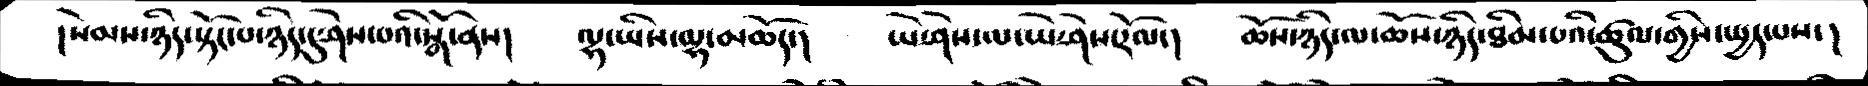།སེམས་ཉིད་སྟོང་པ་ཉིད་དུ་ཤེས་པའི་སྒོ་ནས།   ལྷ་ཡིས་ལྷ་མཆོད་།   ཡེ་ཤེས་ལ་ཡེ་ཤེས་རོལ་།   ཆོས་ཉིད་ལ་ཆོས་ཉིད་ཐིམ་པའི་ཚུལ་གྱིས་སྤྱད་པས་།
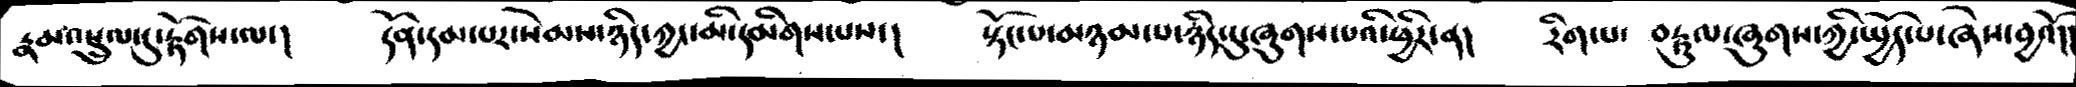རྣམ་འཕྲུལ་དུ་རྟོགས་ལ་།   དོན་དམ་པར་སེམས་ཉིད་ཀྱང་མི་དམིགས་པས་།  སྟོང་པ་མཉམ་པ་ཉིད་དུ་ཞུགས་པའི་ཕྱིར་ན།  རིག་པ་ བརྟུལ་ཞུགས་ཀྱི་སྤྱོད་པ་ཞེས་བྱའོ།།
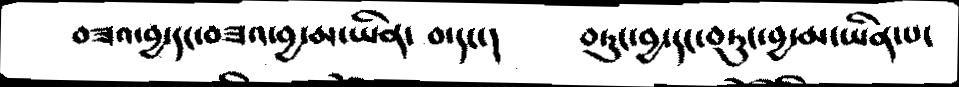བཟའ་བྱ་དང་བཟའ་བྱ་མ་ཡིན་ བ་དང་།   བཏུང་བྱ་དང་བཏུང་བྱ་མ་ཡིན་པ་
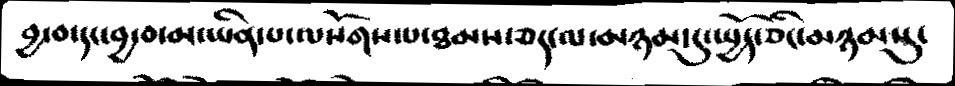བྱ་བ་དང་བྱ་བ་མ་ཡིན་པ་ལསོགས་པ་ཐམས་ཅད་ལ་མཉམ་དུ་སྤྱོད་ཅིང་མཉམསུ་
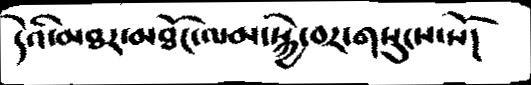དེའི་མཐར་མཐོང་ལམ་སྐྱེ་བར་གསུངས་སོ།
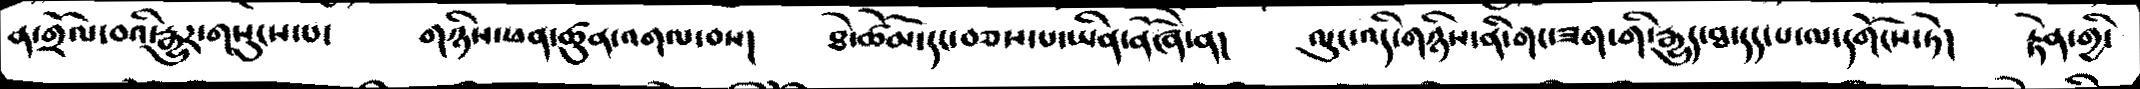ན་གྲོལ་བའི་རྒྱུར་གསུངས་པ་   གཉིས་ཕན་ཚུན་འགལ་བས།   ཐེ་ཚོམ་དང་བཅས་པ་ཡིན་ནོ་ཞེ་ན།   ལུང་འདི་གཉིས་ནི་གང་ཟག་གི་རྒྱུད་ཐ་དད་པ་ལ་དགོངས་ཏེ།  རྟེན་གྱི་
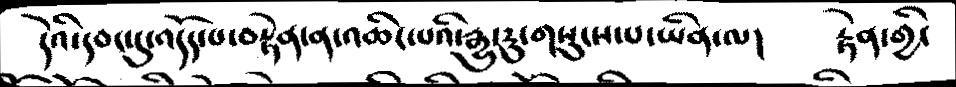དེའི་དབང་དུ་འདོད་པ་བརྟེན་ན་འཆིང་པའི་རྒྱུ་རུ་གསུངས་པ་ཡིན་ལ།   རྟེན་གྱི་
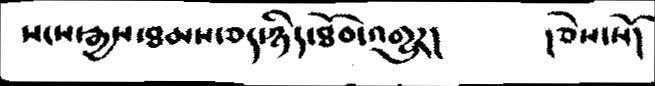སངས་རྒྱས་ཐམས་ཅད་ཉིད་ཐོབ་འགྱུར།   །ཅེས་་ོ།
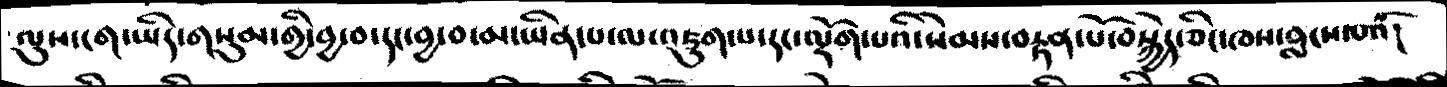ལུས་ངག་ཡིད་གསུམ་གྱི་བྱ་བ་དང་བྱ་བ་མ་ཡིན་པ་ལ་འཇུག་པ་དང་ལྡོག་པའི་སེམས་བརྟན་པོ་བསྐྱེད་ཅིང་ཁས་བླངས་པའོ།
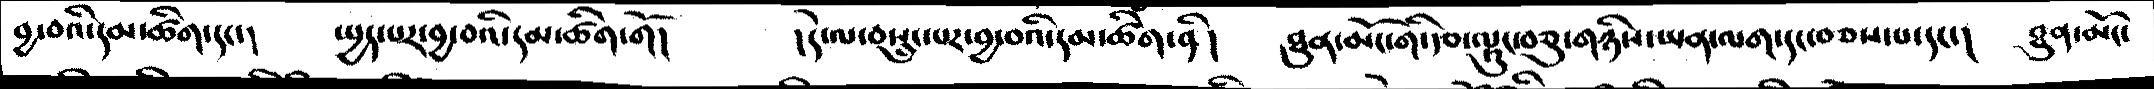བྱ་བའི་དམ་ཚིག་དང་།   སྤྱད་པར་བྱ་བའི་དམ་ཚིག་གོ།   །དེ་ལ་བསྲུང་པར་བྱ་བའི་དམ་ཚིག་ནི།  ཐུན་མོང་གི་རྩ་ལྟུང་བཅུ་གཉིས་ཡན་ལག་དང་བཅས་པ་དང་།   ཐུན་མོང་
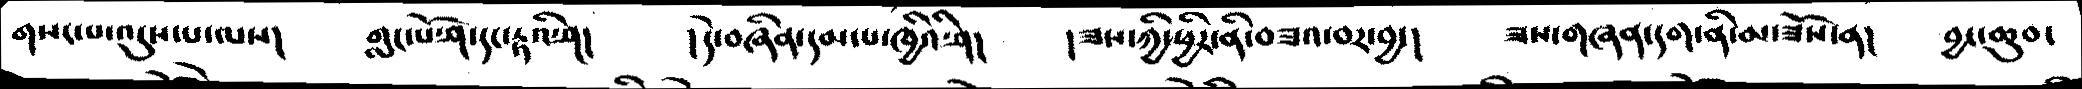གསང་པ་འདུས་པ་ལས།   གླང་པོ་ཤ་དང་རྟའི་ཤ།   །དེ་བཞིན་དམ་པ་ཁྱིའི་ཤ།   །ཟས་ཀྱི་ཕྱིར་ནི་བཟའ་བར་བྱ་།   ཟས་གཞན་དག་ནི་མ་ཟོས་ན།  བྱང་ཆུབ་
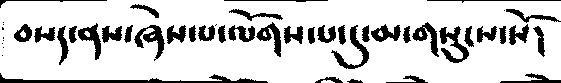བསད་ནས་ཞེས་པ་ལོགས་པ་དུ་མ་གསུངས་སོ།
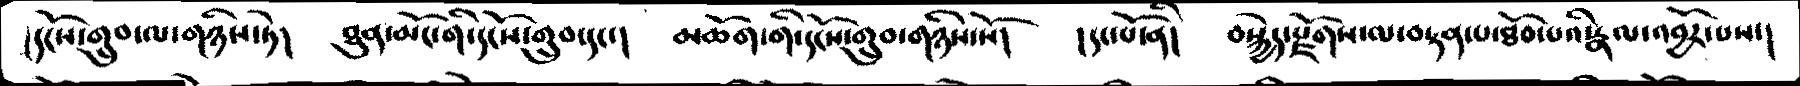།དངོས་གྲུབ་ལ་གཉིས་ཏེ།   ཐུན་མོང་གི་དངོས་གྲུབ་དང་།   མཆོག་གི་དངོས་གྲུབ་གཉིས་སོ།   །དང་པོ་ནི།   བསྐྱེད་རྫོགས་ལ་བསྟན་པ་ཐོབ་པའི་རྣལ་འབྱོར་པས་།
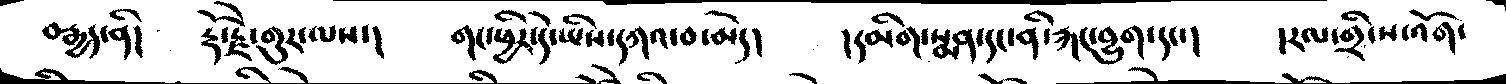བརྒྱད་ནི།   རྡོ་རྗེ་གུར་ལས་།   གང་ཕྱིར་དེ་ཡིས་དཀའ་བ་མེད།   །དམིག་སྨན་དང་ནི་རྐང་བྱུག་དང་།   །རལ་གྲི་ས་འོག་
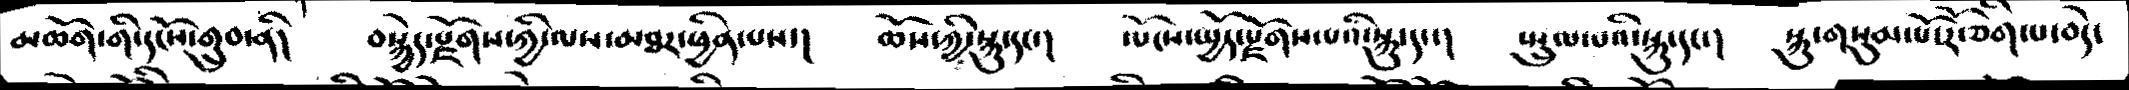མཆོག་གི་དངོས་གྲུབ་ནི།   བསྐྱེད་རྫོགས་ཀྱི་ལས་མཐར་ཕྱིན་པས་།   ཆོས་ཀྱི་སྐུ་དང་།   ལོངས་སྤྱོད་རྫོགས་པའི་སྐུ་དང་།  སྤྲུལ་པའི་སྐུ་དང་།  སྐུ་གསུམ་པོ་རོ་ཅིག་པ་བདེ་
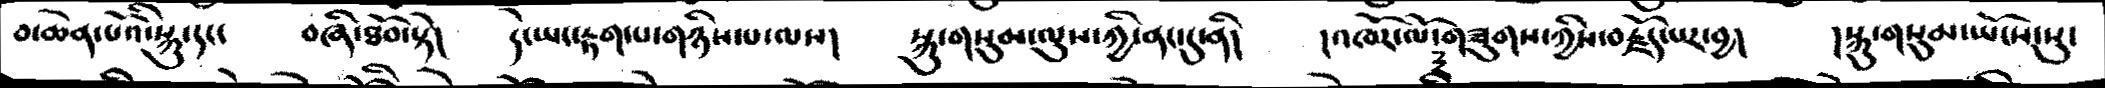བ་ཆེན་པོའི་སྐུ་དང་   བཞི་ཐོབ་སྟེ།   དེ་ཡང་རྟག་པ་གཉིས་པ་ལས།    སྐུ་གསུམ་ལུས་ཀྱི་ནང་དུ་ནི།   །འཁོར་ལོ་གཟུགས་ཀྱིས་བརྗོད་པར་བྱ།   །སྐུ་གསུམ་ཡོངས་སུ་
